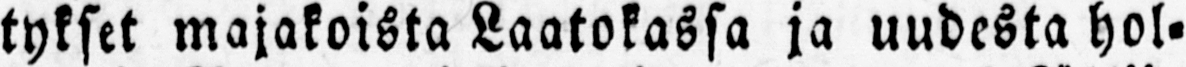tykset majakoista Laatokassa ja uudesta hol-
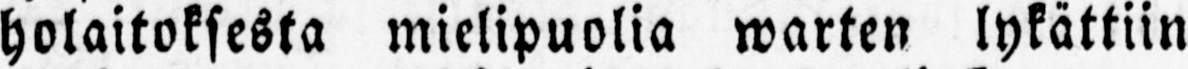holaitoksesta mielipuolia warten lykättiin
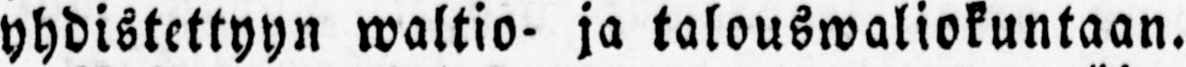yhdistettyyn waltio- ja talouswaliokuntaan.
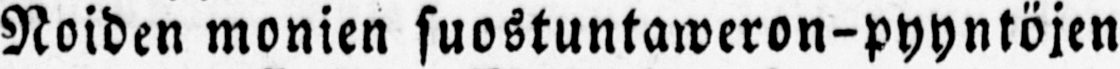Noiden monien suostuntaweron-pyyntöjen
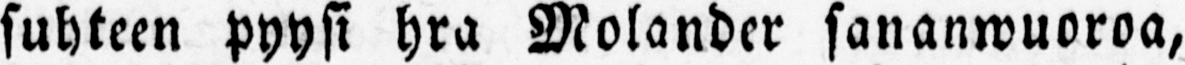suhteen pyysi hra Molander sananwuoroa,
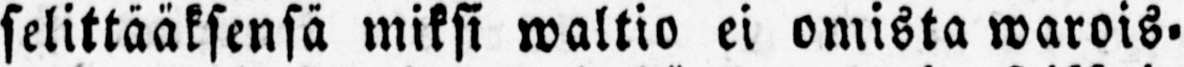selittääksensä miksi waltio ei omista warois-
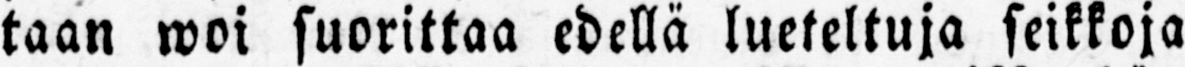taan woi suorittaa edellä lueteltuja seikkoja
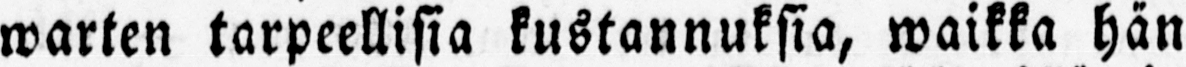warten tarpeellisia kustannuksia, waikka hän
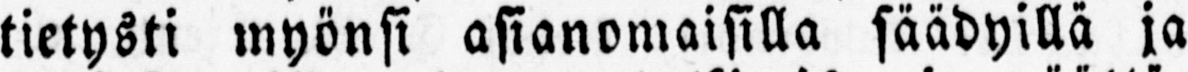tietysti myönsi asianomaisilla säädyillä ja
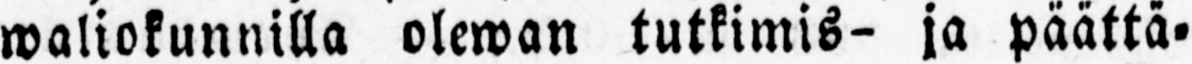waliokunnilla olewan tutkimis- ja päättä-
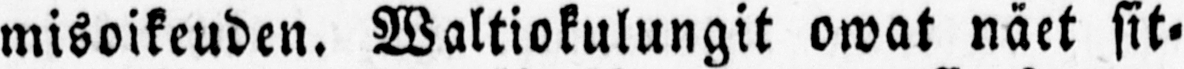misoikeuden. Waltiokulungit owat näet sit-
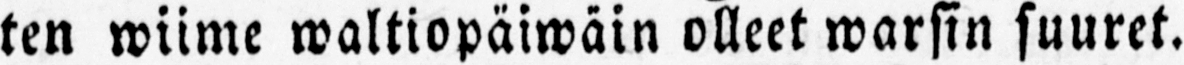ten wiime waltiopäiwäin olleet warsin suuret.
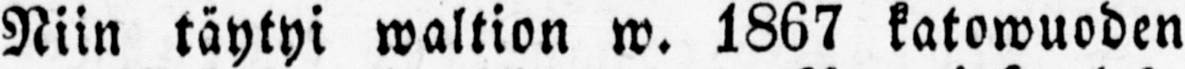Niin täytyi waltion w. 1867 katowuoden
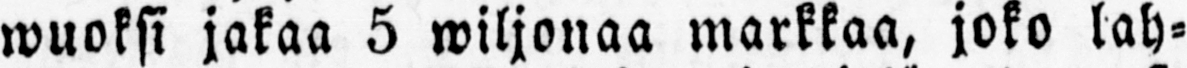wuoksi jakaa 5 miljonaa markkaa, joko lah-
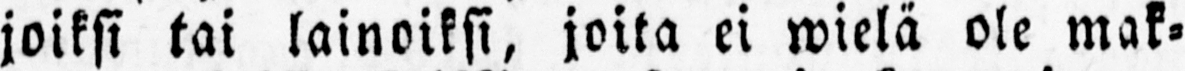joiksi tai lainoiksi, joita ei wielä ole mak-
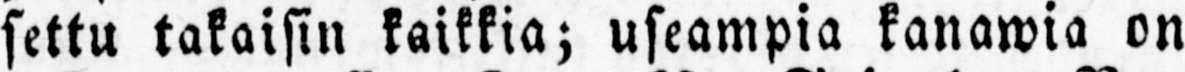settu takaisin kaikkia; useampia kanawia on
